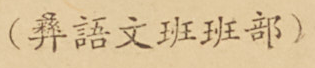（彝語文班班部）
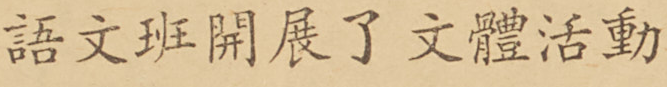語文班開展了文體活動
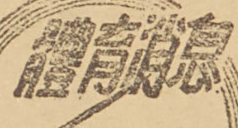體育消息
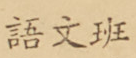語文班
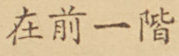在前一階
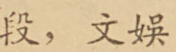段，文娛
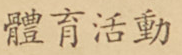體育活動
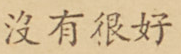沒有很好
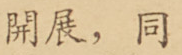開展，同
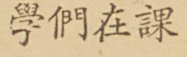學們在課
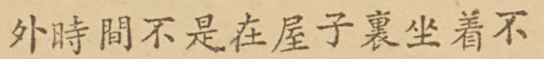外時間不是在屋子裏坐着不
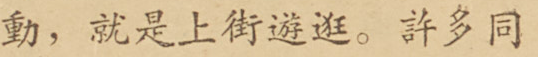動，就是上街遊逛。許多同
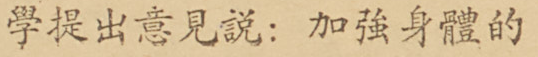學提出意見說：加強身體的
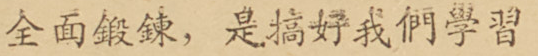全面鍛鍊，是搞好我們學習
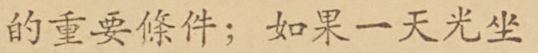的重要條件；如果一天光坐
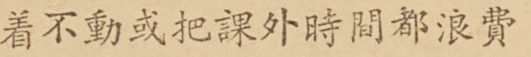着不動或把課外時間都浪費
